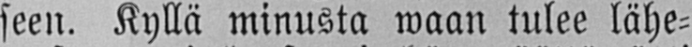seen. Kyllä minusta waan tulee lähe-
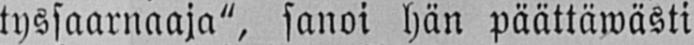tyssaarnaaja", sanoi hän päättäwästi
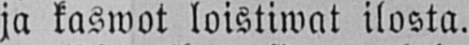ja kaswot loistiwat ilosta.
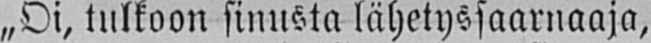„Oi, tulkoon sinusta lähetyssaarnaaja,
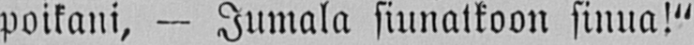poikani, — Jumala siunatkoon sinua!"
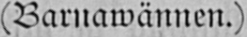(Barnawännen.)
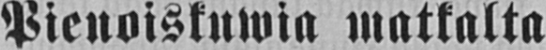Pienoiskuwia matkalta
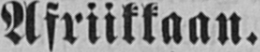Afriikkaan.
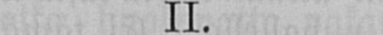II.
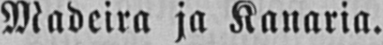Madeira ja Kanaria.
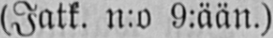(Jatk. n:o 9:ään.)
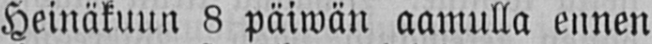Heinäkuun 8 päiwän aamulla ennen
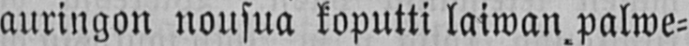auringon nousua koputti laiwan palwe-
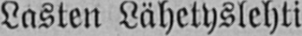Lasten Lähetyslehti.
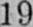19
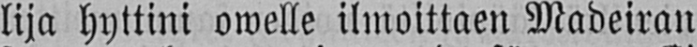lija hyttini owelle ilmoittaen Madeiran
